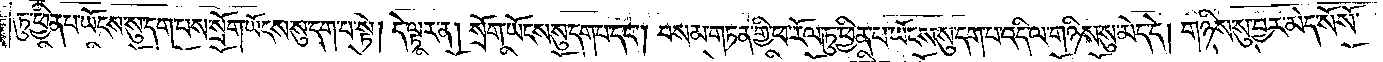ཏུ་ཕྱིན་པ་ཡོངས་སུ་དག་པས་སྲོག་ཡོངས་སུ་དག་པ་སྟེ། དེ་ལྟར་ན། སྲོག་ཡོངས་སུ་དག་པ་དང༌། བསམ་གཏན་གྱི་ཕ་རོལ་ཏུ་ཕྱིན་པ་ཡོངས་སུ་དག་པ་འདི་ལ་གཉིས་སུ་མེད་དེ། གཉིས་སུ་བྱར་མེད་སོ་སོ་
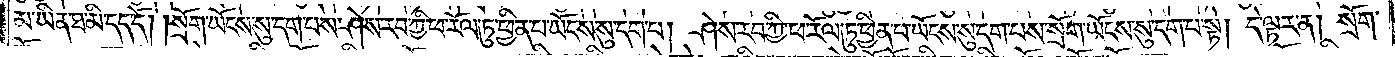མ་ཡིན་ཐ་མི་དད་དོ། །སྲོག་ཡོངས་སུ་དག་པས་ཤེས་རབ་ཀྱི་ཕ་རོལ་ཏུ་ཕྱིན་པ་ཡོངས་སུ་དག་པ། ཤེས་རབ་ཀྱི་ཕ་རོལ་ཏུ་ཕྱིན་པ་ཡོངས་སུ་དག་པས་སྲོག་ཡོངས་སུ་དག་པ་སྟེ། དེ་ལྟར་ན། སྲོག་
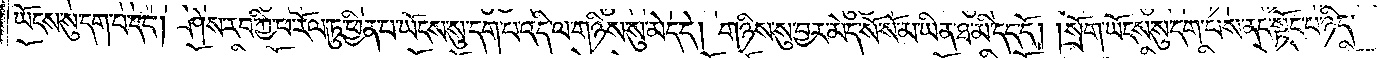ཡོངས་སུ་དག་པ་དང༌། ཤེས་རབ་ཀྱི་ཕ་རོལ་ཏུ་ཕྱིན་པ་ཡོངས་སུ་དག་པ་འདི་ལ་གཉིས་སུ་མེད་དེ། གཉིས་སུ་བྱར་མེད་སོ་སོ་མ་ཡིན་ཐ་མི་དད་དོ། །སྲོག་ཡོངས་སུ་དག་པས་ནང་སྟོང་པ་ཉིད་
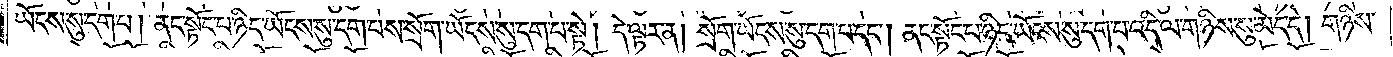ཡོངས་སུ་དག་པ། ནང་སྟོང་པ་ཉིད་ཡོངས་སུ་དག་པས་སྲོག་ཡོངས་སུ་དག་པ་སྟེ། དེ་ལྟར་ན། སྲོག་ཡོངས་སུ་དག་པ་དང༌། ནང་སྟོང་པ་ཉིད་ཡོངས་སུ་དག་པ་འདི་ལ་གཉིས་སུ་མེད་དེ། གཉིས་
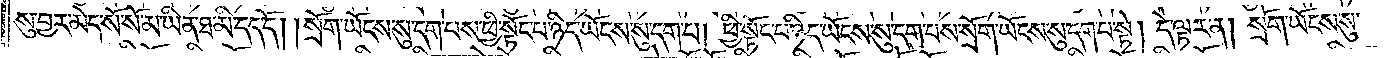སུ་བྱར་མེད་སོ་སོ་མ་ཡིན་ཐ་མི་དད་དོ། །སྲོག་ཡོངས་སུ་དག་པས་ཕྱི་སྟོང་པ་ཉིད་ཡོངས་སུ་དག་པ། ཕྱི་སྟོང་པ་ཉིད་ཡོངས་སུ་དག་པས་སྲོག་ཡོངས་སུ་དག་པ་སྟེ། དེ་ལྟར་ན། སྲོག་ཡོངས་སུ་
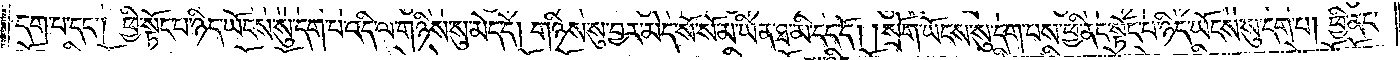དག་པ་དང༌། ཕྱི་སྟོང་པ་ཉིད་ཡོངས་སུ་དག་པ་འདི་ལ་གཉིས་སུ་མེད་དེ། གཉིས་སུ་བྱར་མེད་སོ་སོ་མ་ཡིན་ཐ་མི་དད་དོ། །སྲོག་ཡོངས་སུ་དག་པས་ཕྱི་ནང་སྟོང་པ་ཉིད་ཡོངས་སུ་དག་པ། ཕྱི་ནང་
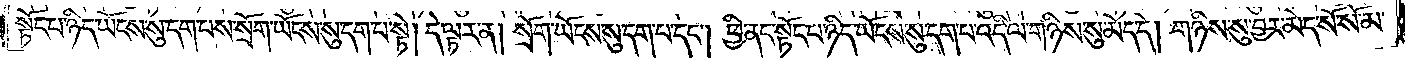སྟོང་པ་ཉིད་ཡོངས་སུ་དག་པས་སྲོག་ཡོངས་སུ་དག་པ་སྟེ། དེ་ལྟར་ན། སྲོག་ཡོངས་སུ་དག་པ་དང༌། ཕྱི་ནང་སྟོང་པ་ཉིད་ཡོངས་སུ་དག་པ་འདི་ལ་གཉིས་སུ་མེད་དེ། གཉིས་སུ་བྱར་མེད་སོ་སོ་མ་
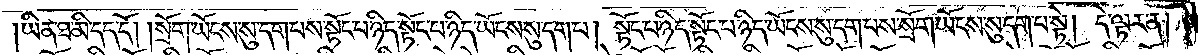ཡིན་ཐ་མི་དད་དོ། །སྲོག་ཡོངས་སུ་དག་པས་སྟོང་པ་ཉིད་སྟོང་པ་ཉིད་ཡོངས་སུ་དག་པ། སྟོང་པ་ཉིད་སྟོང་པ་ཉིད་ཡོངས་སུ་དག་པས་སྲོག་ཡོངས་སུ་དག་པ་སྟེ། དེ་ལྟར་ན།
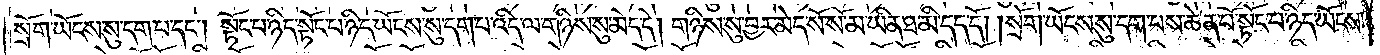སྲོག་ཡོངས་སུ་དག་པ་དང༌། སྟོང་པ་ཉིད་སྟོང་པ་ཉིད་ཡོངས་སུ་དག་པ་འདི་ལ་གཉིས་སུ་མེད་དེ། གཉིས་སུ་བྱར་མེད་སོ་སོ་མ་ཡིན་ཐ་མི་དད་དོ། །སྲོག་ཡོངས་སུ་དག་པས་ཆེན་པོ་སྟོང་པ་ཉིད་ཡོངས་
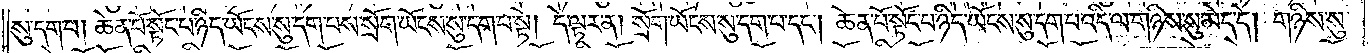སུ་དག་པ། ཆེན་པོ་སྟོང་པ་ཉིད་ཡོངས་སུ་དག་པས་སྲོག་ཡོངས་སུ་དག་པ་སྟེ། དེ་ལྟར་ན། སྲོག་ཡོངས་སུ་དག་པ་དང༌། ཆེན་པོ་སྟོང་པ་ཉིད་ཡོངས་སུ་དག་པ་འདི་ལ་གཉིས་སུ་མེད་དེ། གཉིས་སུ་
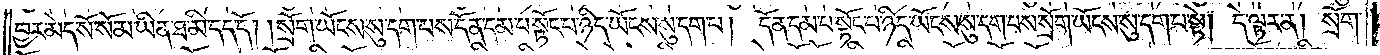བྱར་མེད་སོ་སོ་མ་ཡིན་ཐ་མི་དད་དོ། །སྲོག་ཡོངས་སུ་དག་པས་དོན་དམ་པ་སྟོང་པ་ཉིད་ཡོངས་སུ་དག་པ། དོན་དམ་པ་སྟོང་པ་ཉིད་ཡོངས་སུ་དག་པས་སྲོག་ཡོངས་སུ་དག་པ་སྟེ། དེ་ལྟར་ན། སྲོག་
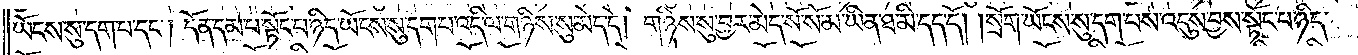ཡོངས་སུ་དག་པ་དང༌། དོན་དམ་པ་སྟོང་པ་ཉིད་ཡོངས་སུ་དག་པ་འདི་ལ་གཉིས་སུ་མེད་དེ། གཉིས་སུ་བྱར་མེད་སོ་སོ་མ་ཡིན་ཐ་མི་དད་དོ། །སྲོག་ཡོངས་སུ་དག་པས་འདུས་བྱས་སྟོང་པ་ཉིད་
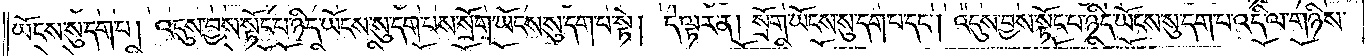ཡོངས་སུ་དག་པ། འདུས་བྱས་སྟོང་པ་ཉིད་ཡོངས་སུ་དག་པས་སྲོག་ཡོངས་སུ་དག་པ་སྟེ། དེ་ལྟར་ན། སྲོག་ཡོངས་སུ་དག་པ་དང༌། འདུས་བྱས་སྟོང་པ་ཉིད་ཡོངས་སུ་དག་པ་འདི་ལ་གཉིས་
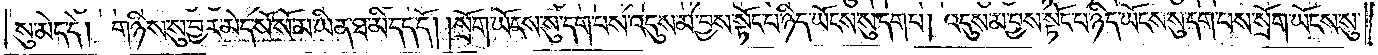སུ་མེད་དེ། གཉིས་སུ་བྱར་མེད་སོ་སོ་མ་ཡིན་ཐ་མི་དད་དོ། །སྲོག་ཡོངས་སུ་དག་པས་འདུས་མ་བྱས་སྟོང་པ་ཉིད་ཡོངས་སུ་དག་པ། འདུས་མ་བྱས་སྟོང་པ་ཉིད་ཡོངས་སུ་དག་པས་སྲོག་ཡོངས་སུ་
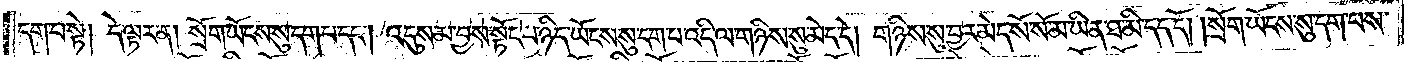དག་པ་སྟེ། དེ་ལྟར་ན། སྲོག་ཡོངས་སུ་དག་པ་དང༌། འདུས་མ་བྱས་སྟོང་པ་ཉིད་ཡོངས་སུ་དག་པ་འདི་ལ་གཉིས་སུ་མེད་དེ། གཉིས་སུ་བྱར་མེད་སོ་སོ་མ་ཡིན་ཐ་མི་དད་དོ། །སྲོག་ཡོངས་སུ་དག་པས་
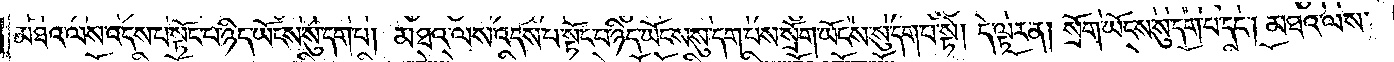མཐའ་ལས་འདས་པ་སྟོང་པ་ཉིད་ཡོངས་སུ་དག་པ། མཐའ་ལས་འདས་པ་སྟོང་པ་ཉིད་ཡོངས་སུ་དག་པས་སྲོག་ཡོངས་སུ་དག་པ་སྟེ། དེ་ལྟར་ན། སྲོག་ཡོངས་སུ་དག་པ་དང༌། མཐའ་ལས་
